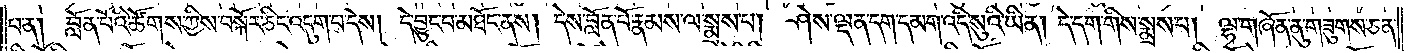པ་ན། བློན་པོའི་ཚོགས་ཀྱིས་བསྐོར་ཅིང་འདུག་པ་དེས། དེ་བྱུང་བ་མཐོང་ནས། དེས་བློན་པོ་རྣམས་ལ་སྨྲས་པ། ཤེས་ལྡན་དག་དམག་འདི་སུའི་ཡིན། དེ་དག་གིས་སྨྲས་པ། ལྷ་གཞོན་ནུ་གཟུགས་ཅན་
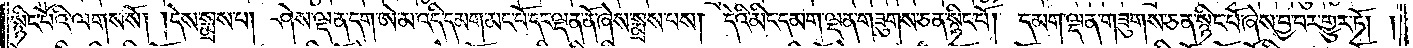སྙིང་པོའི་ལགས་སོ། །དེས་སྨྲས་པ། ཤེས་ལྡན་དག་ཨེ་མ་འདི་དམག་མང་པོ་དང་ལྡན་ནོ་ཞེས་སྨྲས་པས། དེའི་མིང་དམག་ལྡན་གཟུགས་ཅན་སྙིང་པོ། དམག་ལྡན་གཟུགས་ཅན་སྙིང་པོ་ཞེས་བྱ་བར་གྱུར་ཏོ། །
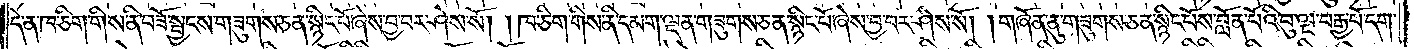དེ་ན་ཁ་ཅིག་གིས་ནི་བཟོ་སྦྱངས་གཟུགས་ཅན་སྙིང་པོ་ཞེས་བྱ་བར་ཤེས་སོ། །ཁ་ཅིག་གིས་ནི་དམག་ལྡན་གཟུགས་ཅན་སྙིང་པོ་ཞེས་བྱ་བར་ཤེས་སོ། །གཞོན་ནུ་གཟུགས་ཅན་སྙིང་པོས་བློན་པོའི་བུ་ལྔ་བརྒྱ་པོ་དག་
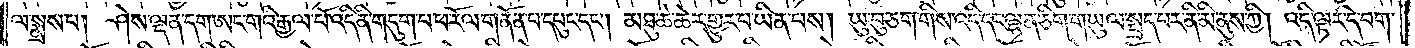ལ་སྨྲས་པ། ཤེས་ལྡན་དག་ཨང་གའི་རྒྱལ་པོ་འདི་ནི་གདུག་པ་ཕ་རོལ་གནོན་པ་དཔུང་དང༌། མཐུ་ཆེ་ཆེར་གྱུར་པ་ཡིན་པས། ཡུ་བུ་ཅག་གིས་འདི་དང་ལྷན་ཅིག་གཡུལ་སྤྲད་པར་ནི་མི་ནུས་ཀྱི། འདི་ལྟར་དེ་བག་
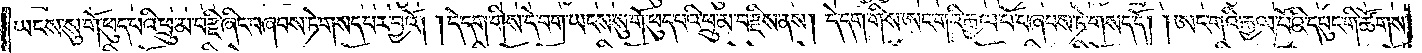ཡངས་སུ་གོ་ཕུད་པའི་ཕྲུམ་བརྫི་ཞིང་བཞབས་ཏེ་གསད་པར་བྱའོ། །དེ་དག་གིས་དེ་བག་ཡངས་སུ་གོ་ཕུད་པའི་ཕྲུ་མ་བརྫིས་ནས། དེ་དག་གིས་ཨང་གའི་རྒྱལ་པོ་བཞབས་ཏེ་གསད་དོ། །ཨང་གའི་རྒྱལ་པོའི་དཔུང་གི་ཚོགས་
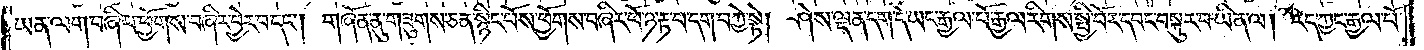ཡན་ལག་བཞི་པ་ཕྱོགས་བཞིར་ཕྱེར་བ་དང༌། གཞོན་ནུ་གཟུགས་ཅན་སྙིང་པོས་ཕྱོགས་བཞིར་ཕོ་ཉ་རྟ་བ་དག་བཀྱེ་སྟེ། ཤེས་ལྡན་དག་དེ་ཡང་རྒྱལ་པོ་རྒྱལ་རིགས་སྤྱི་བོར་དབང་བསྐུར་བ་ཡིན་ལ། ངེད་ཀྱང་རྒྱལ་པོ་
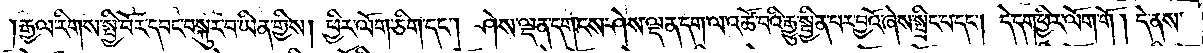རྒྱལ་རིགས་སྤྱི་བོར་དབང་བསྐུར་བ་ཡིན་གྱིས། ཕྱིར་ལོག་ཅིག་དང༌། ཤེས་ལྡན་དག་ངས་ཤེས་ལྡན་དག་ལ་འཚོ་བའི་རྒྱུ་སྦྱིན་པར་བྱའོ་ཞེས་སྤྲིང་པ་དང༌། དེ་དག་ཕྱིར་ལོག་གོ། དེ་ནས་
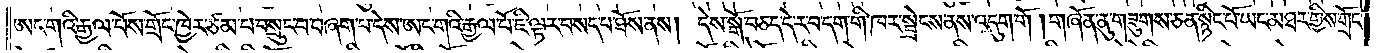ཨང་གའི་རྒྱལ་པོས་གྲོང་ཁྱེར་ཙམ་པ་བསྲུང་བ་བཞག་པ་དེས་ཨང་གའི་རྒྱལ་པོ་ཇི་ལྟར་བསད་པ་ཐོས་ནས། དེས་སྒོ་བཅད་དེར་བདག་གི་ཁར་སྦྲེངས་ནས་འདུག་གོ །གཞོན་ནུ་གཟུགས་ཅན་སྙིང་པོ་ཡང་མཐར་གྱིས་གྲོང་
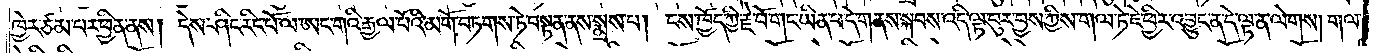ཁྱེར་ཙམ་པར་ཕྱིན་ནས། དེས་ཤིང་རིང་པོ་ལ་ཨང་གའི་རྒྱལ་པོའི་མགོ་བཏགས་ཏེ་བསྟན་ནས་སྨྲས་པ། ངས་ཁྱོད་ཀྱི་རྗེ་བོ་གང་ཡིན་པ་དེ་གནས་སྐབས་འདི་ལྟ་བུར་བྱས་ཀྱིས་གལ་ཏེ་ཇི་ཕྱིར་འབྱུང་ན་དེ་ལྟ་ན་ལེགས། གལ་
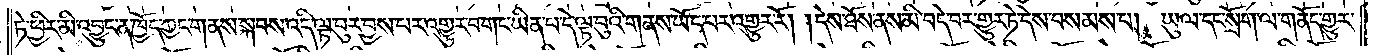ཏེ་ཕྱིར་མི་འབྱུང་ན་ཁྱོད་ཀྱང་གནས་སྐབས་འདི་ལྟ་བུར་བྱས་པར་འགྱུར་བ་གང་ཡིན་པ་དེ་ལྟ་བུའི་གནས་ཡོད་པར་འགྱུར་རོ། །དེས་ཐོས་ནས་མི་བདེ་བར་གྱུར་ཏེ་དེས་བསམས་པ། ཡུལ་དང་སྲོག་ལ་གནོད་གྱུར་
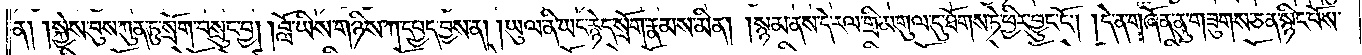ན། །སྐྱེས་བུས་ཀུན་ཏུ་སྲོག་བསྲུང་བྱ། །བློ་ཡིས་གཉིས་ཀ་དཔྱད་བྱས་ན། །ཡུལ་ནི་ཡང་རྙེད་སྲོག་རྣམས་མིན། །སྙམ་ནས་དེ་རལ་གྲི་མགུལ་དུ་ཐོགས་ཏེ་ཕྱིར་བྱུང་ངོ༌། །དེ་ན་གཞོན་ནུ་གཟུགས་ཅན་སྙིང་པོས་
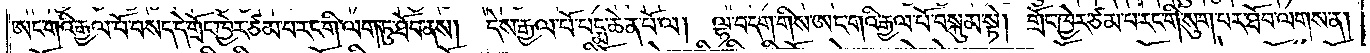ཨང་གའི་རྒྱལ་པོ་བསད་དེ་གྲོང་ཁྱེར་ཙམ་པ་རང་གི་ལག་ཏུ་ཐོབ་ནས། དེས་རྒྱལ་པོ་པདྨ་ཆེན་པོ་ལ། ལྷ་བདག་གིས་ཨང་གའི་རྒྱལ་པོ་བསྐུམ་སྟེ། གྲོང་ཁྱེར་ཙམ་པ་རང་གི་སུག་པར་ཐོབ་ལགས་ན།
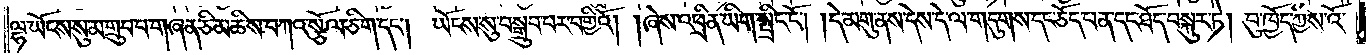ལྷ་ཡོངས་སུ་མ་གྲུབ་པ་གཞན་ཅི་མཆིས་བཀའ་སྩོལ་ཅིག་དང༌། ཡོངས་སུ་བསྒྲུབ་བར་བགྱིའོ། །ཞེས་འཕྲིན་ཡིག་སྤྲིང་ངོ༌། །དེ་མགུ་ནས་དེས་དེ་ལ་གདུགས་དང་ཅོད་པན་དང་ཐོད་བསྐུར་ཏེ། བུ་ཁྱོད་ཀྱིས་འོ་
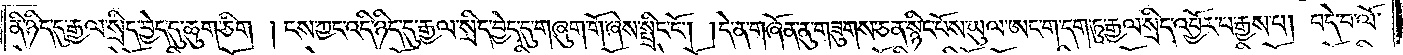ནི་ཉིད་དུ་རྒྱལ་སྲིད་བྱེད་དུ་ཆུག་ཅིག །ངས་ཀྱང་འདི་ཉིད་དུ་རྒྱལ་སྲིད་བྱེད་དུ་གཞུག་གོ་ཞེས་སྤྲིང་ངོ༌། །དེ་ན་གཞོན་ནུ་གཟུགས་ཅན་སྙིང་པོས་ཡུལ་ཨང་ག་དག་ཏུ་རྒྱལ་སྲིད་འབྱོར་པ་རྒྱས་པ། བདེ་བ་ལོ་
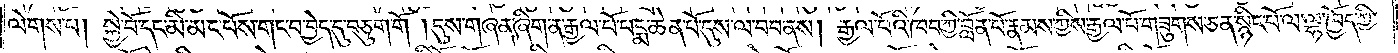ལེགས་པ། སྐྱེ་བོ་དང་མི་མང་པོས་གང་བ་བྱེད་དུ་བཅུག་གོ །དུས་གཞན་ཞིག་ན་རྒྱལ་པོ་པདྨ་ཆེན་པོ་དུས་ལ་བབ་ནས། རྒྱལ་པོའི་ཁབ་ཀྱི་བློན་པོ་རྣམས་ཀྱིས་རྒྱལ་པོ་གཟུགས་ཅན་སྙིང་པོ་ལ་ལྷ་ཁྱོད་ཀྱི་
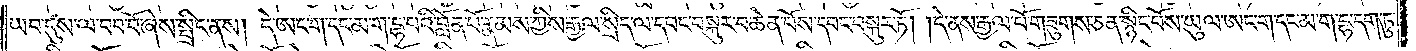ཡབ་དུས་ལ་བབ་བོ་ཞེས་སྤྲིང་ནས། དེ་ཨང་ག་དང་མ་ག་དྷ་པའི་བློན་པོ་རྣམས་ཀྱིས་རྒྱལ་སྲིད་ལ་དབང་བསྐུར་བ་ཆེན་པོས་དབང་བསྐུར་ཏོ། །དེ་ནས་རྒྱལ་པོ་གཟུགས་ཅན་སྙིང་པོས་ཡུལ་ཨང་ག་དང་མ་ག་དྷ་དག་ཏུ་
